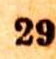29
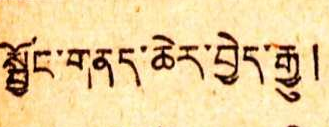སྦྱོང་གནད་ཆེར་བྱེད་རྒྱུ།
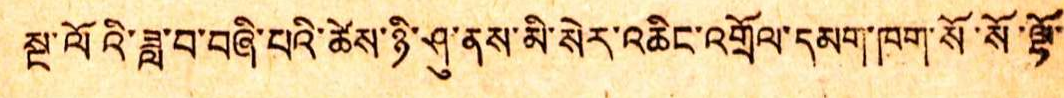སྔ་ལོའི་ཟླ་བ་བཞི་བའི་ཚེས་ཉི་ཤུ་ནས་མི་སེར་འཆིང་འགྲོལ་དམག་ཁག་སོ་སོ་ལྷོ་
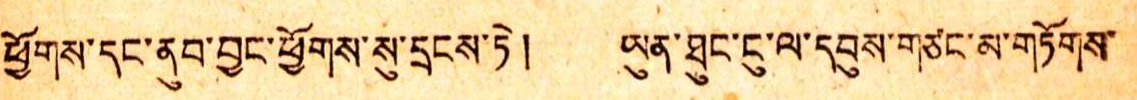ཕྱོགས་དང་ནུབ་བྱང་ཕྱོགས་སུ་དྲངས་ཏེ། ཡུན་ཐུང་ངུ་ལ་དབུས་གཙང་མ་གཏོགས་
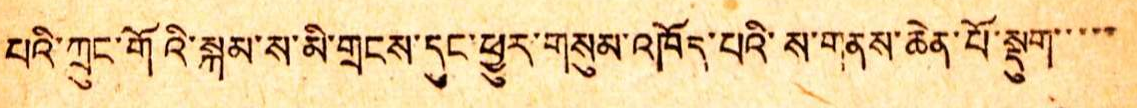པའི་ཀྲུང་གོའི་སྐམ་ས་མི་གྲངས་དུང་ཕྱུར་གསུམ་འཁོད་པའི་ས་གནས་ཆེན་པོ་སྡུག་་་་་
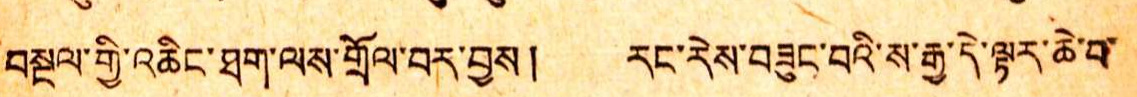བསྔལ་གྱི་འཆིང་ཐག་ལས་གྲོལ་བར་བྱས། རང་རེས་བཟུང་བའི་ས་རྒྱ་དེ་ལྟར་ཆེ་བ་
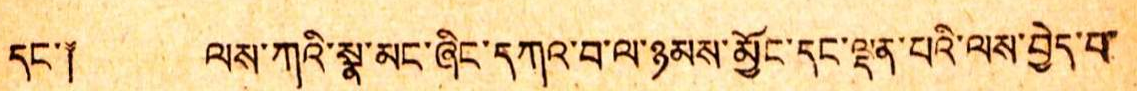དང་༐ ལས་ཀའི་སྣ་མང་ཞིང་དཀའ་བ་ལ་ཉམས་མྱོང་དང་ལྡན་པའི་ལས་བྱེད་པ་
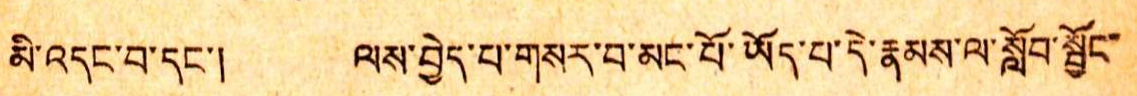མི་འདང་བ་དང་། ལས་བྱེད་པ་གསར་བ་མང་པོ་ཡོད་པ་དེ་རྣམས་ལ་སློབ་སྦྱོང་
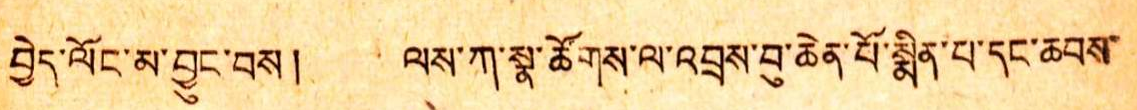བྱེད་ལོང་མ་བྱུང་བས། ལལ་ཀ་སྣ་ཚོགས་ལ་འབྲས་བུ་ཆེན་པོ་སྨིན་པ་དང་ཆབས་
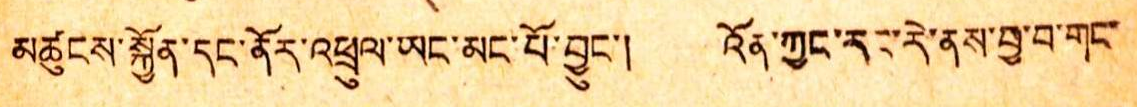མཚུངས་སྐྱོན་དང་ནོར་འཕྲུལ་ཡང་མང་པོ་བྱུང་། འོན་ཀྱང་རང་རེ་ནས་བྱ་བ་གང་
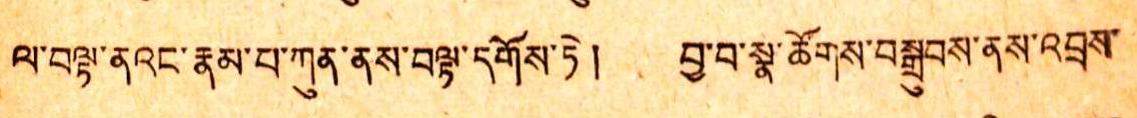ལ་བལྟ་ནའང་རྣམ་པ་ཀུན་ནས་བལྟ་དགོས་ཏེ། བྱ་བ་སྣ་ཚོགས་བསྒྲུབས་ནས་འབྲས་
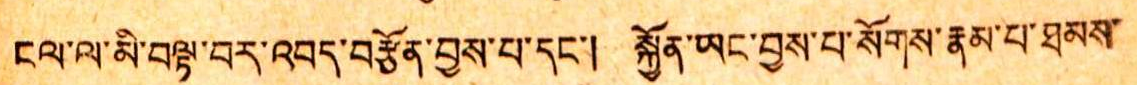ངལ་ལ་མི་བལྟ་བར་འབད་བརྩོན་བྱས་པ་དང་། སྐྱོན་ཡང་བྱས་པ་སོགས་རྣམ་པ་ཐམས་
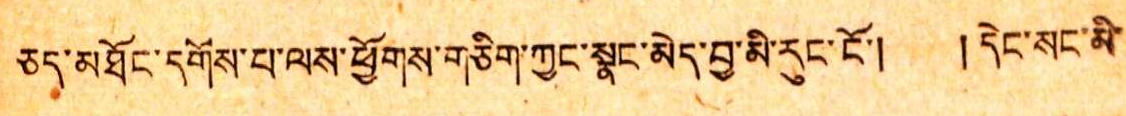ཅད་མཐོང་འགོས་པ་ལས་ཕྱོགས་གཅིག་ཀྱང་སྣང་མེད་བྱ་མི་རུང་ངོ་། །དེང་སང་མི་
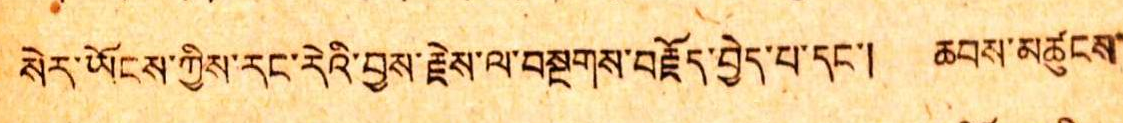སེར་ཡོངས་ཀྱིས་རང་རེའི་བྱས་རྗེས་ལ་བསྔགས་བརྗོད་བྱེད་པ་དང་། ཆབས་མཚུངས་
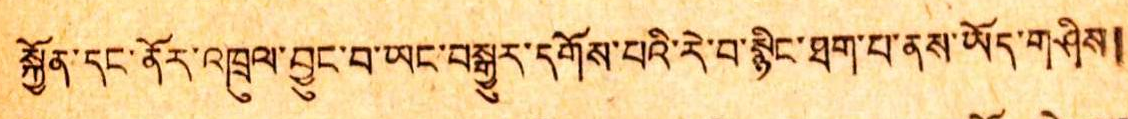སྐྱོན་དང་ནོར་འཁྲུལ་བྱུང་བ་ཡང་བསྒྱུར་དགོས་པའི་རེ་བ་སྙིང་ཐག་པ་ནས་ཡོད་གཤིས།
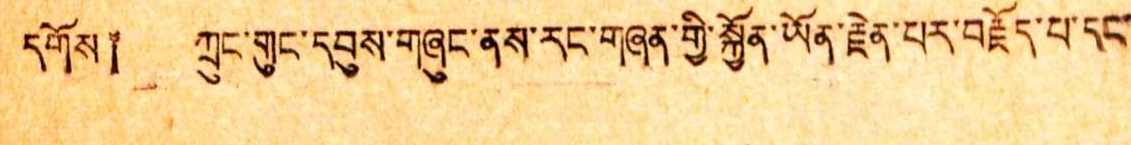དགོས༈ ཀུང་གུང་དབུས་གཞུང་ནས་རང་གཞན་གྱི་སྐྱོན་ཡོན་རྗེན་པར་བརྗོད་པ་དང་
